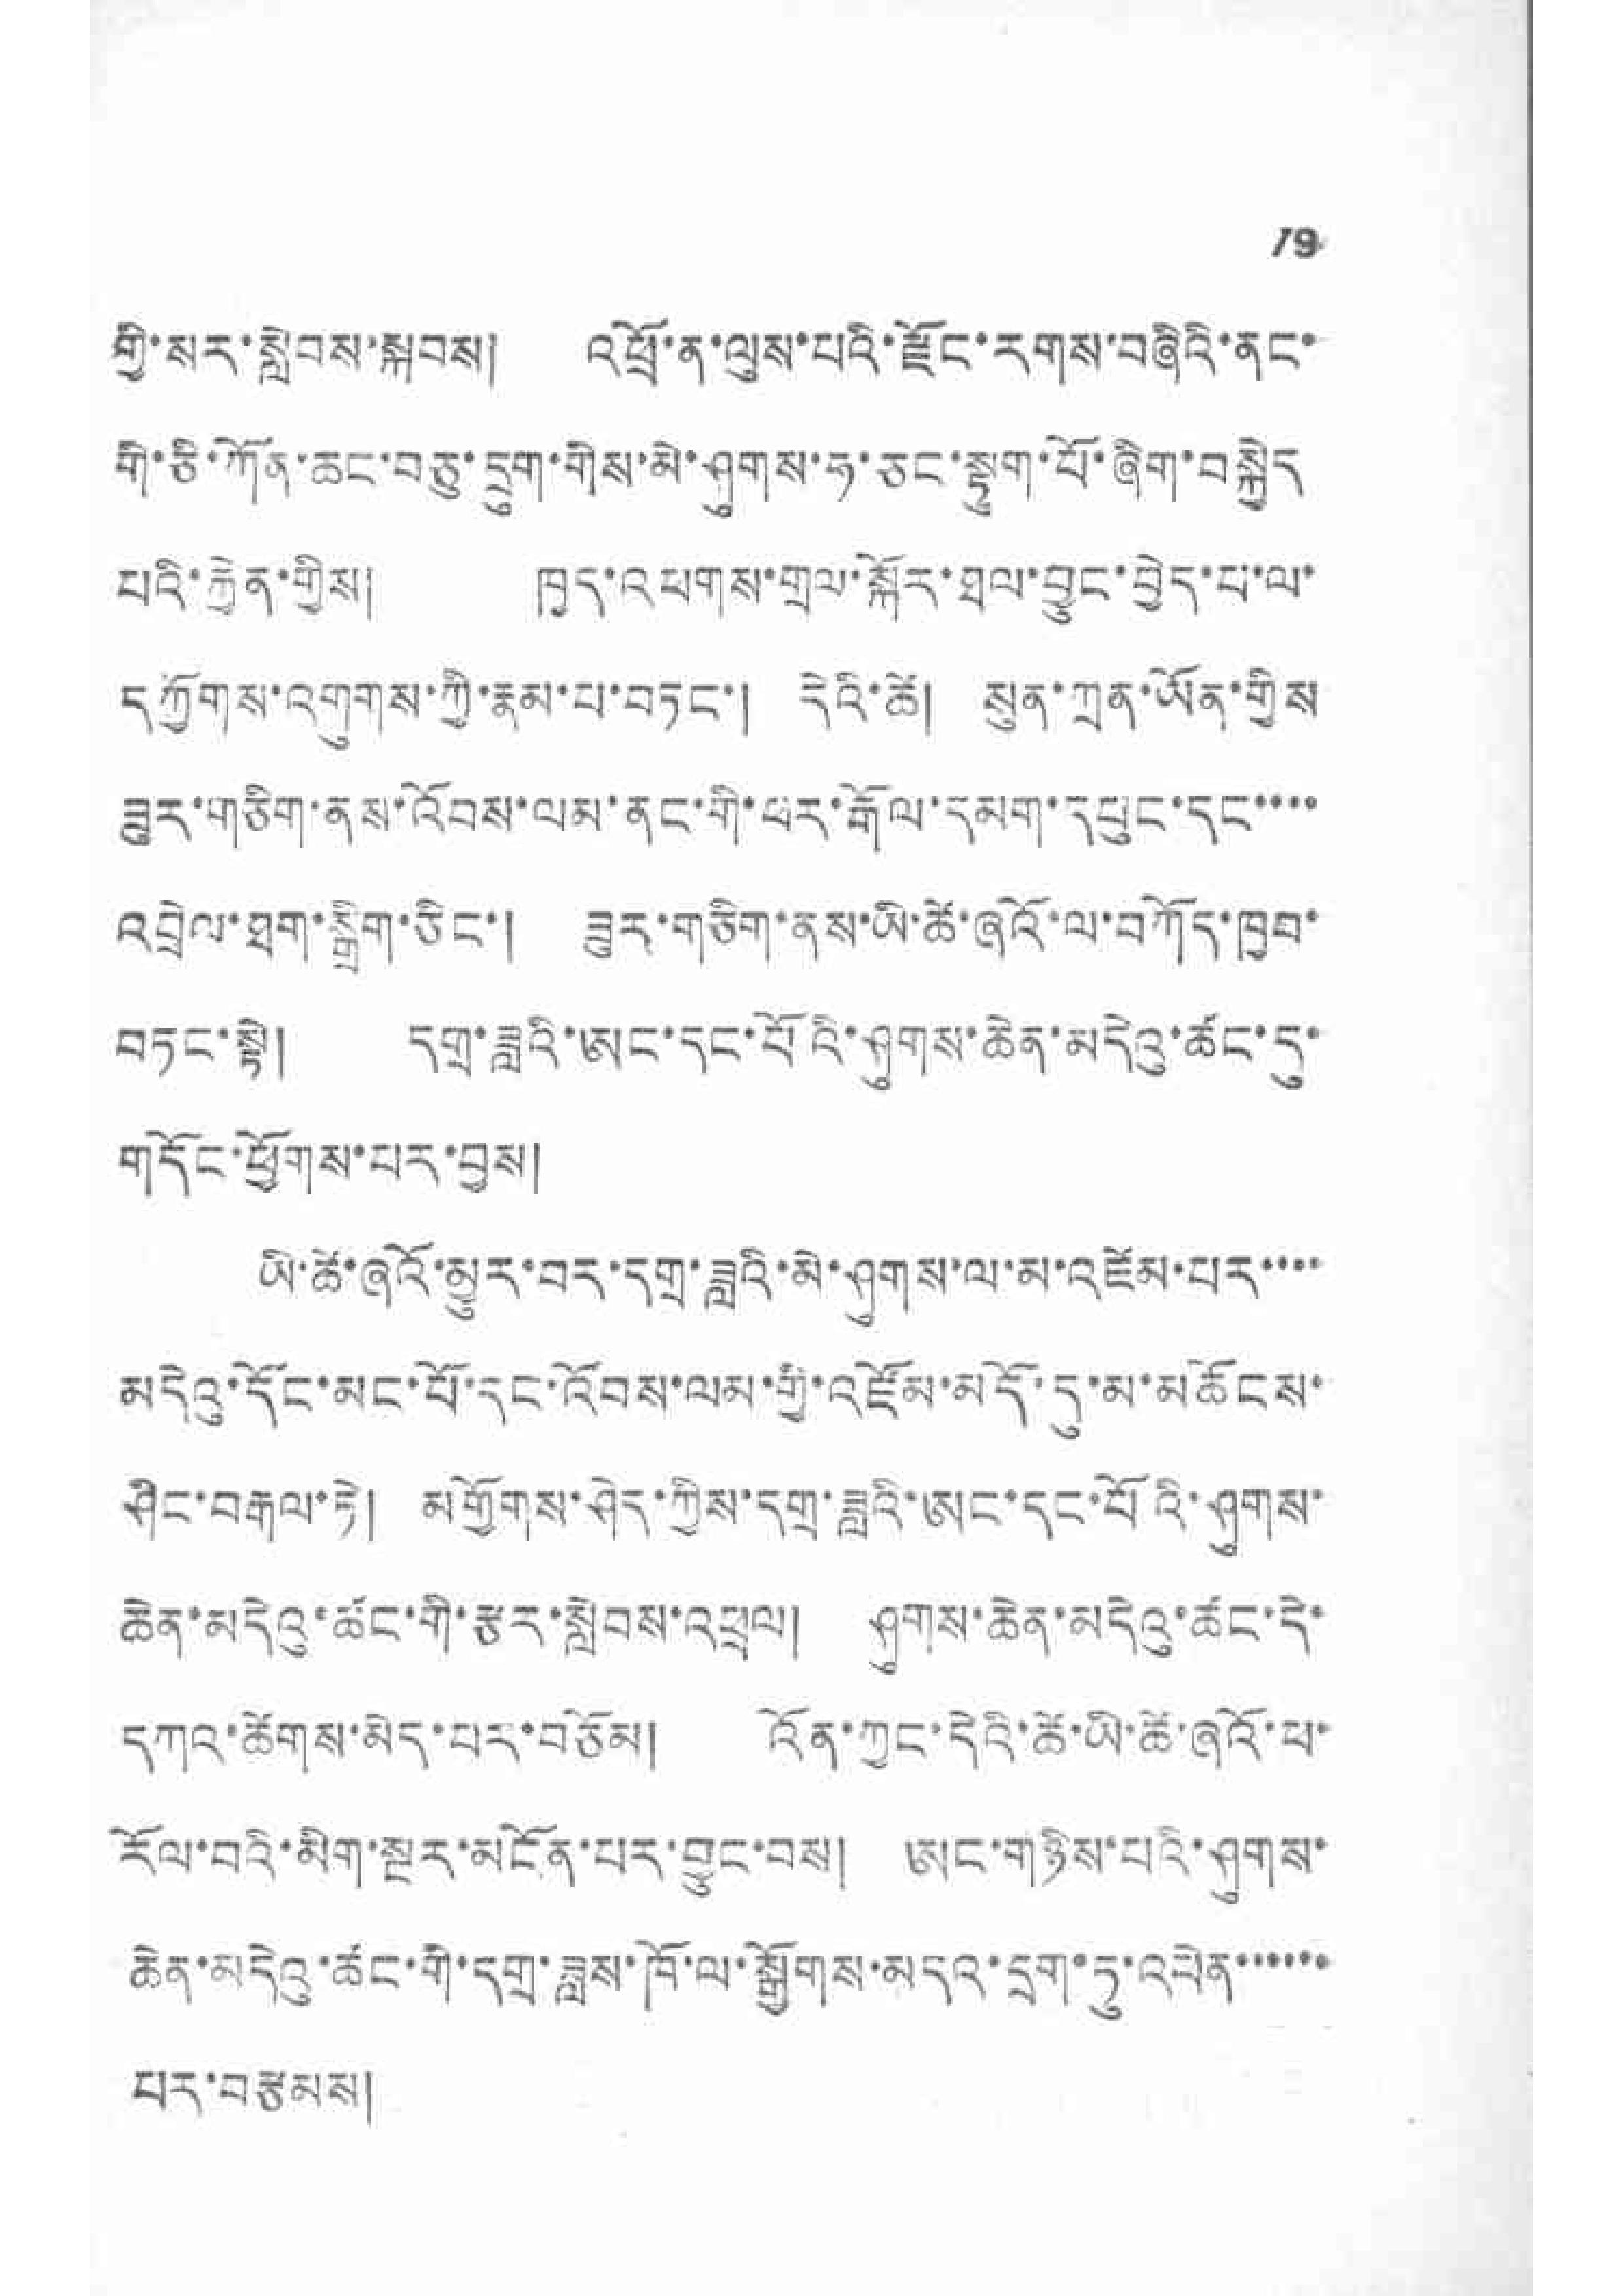19
གྱི་སར་སླེབས་སྐབས། འཕྲོ་ན་ལུས་པའི་རྫོང་རགས་བཞིའི་ནང་
གི་ཅི་ཀོན་ཆང་བཅུ་དྲུག་གིས་མེ་ཤུགས་ཧ་ཅང་སྟུག་པོ་ཞིག་བསྐྱེད
པའི་རྐྱེན་གྱིས། ཁྱར་འཕགས་གྲལ་སྐོར་ཐལ་བྱུང་བྱེད་པ་ལ་
དཀྱོགས་འགུགས་ཀྱི་རྣམ་པ་གཏང་། དེའི་ཚེ། སུན་ཀྲན་ཡོན་གྱིས
ཟུར་གཅིག་ནས་འོབས་ལམ་ནང་གི་ཕར་རྒོལ་དམག་དཔུང་དང་་་་
འབྲེལ་ཐག་སྒྲིག་ཅིང་། ཟུར་གཅིག་ནས་ཡི་ཚེ་ཞོའོ་ལ་བཀོད་ཁྱབ་
བཏང་སྟེ། དགྲ་ཟླའི་ཨང་དང་པོའི་ཤུགས་ཆེན་མདེའུ་ཚང་དུ་
གདོང་ཕྱོགས་པར་བྱས།
ཡི་ཚེ་ཞའོ་མྱུར་བར་དགྲ་ཟླའི་མེ་ཤུགས་ལ་མ་འཛེམ་པར་་་་
མདེའུ་དོང་མང་པོ་དང་འོབས་ལམ་གྱི་འཛོམ་མདོ་དུ་མ་མཆོངས་
ཤིང་བརྒལ་ཏེ། མགྱོགས་ཤེད་ཀྱིས་དགྲ་ཟླའི་ཨང་དང་པོའི་ཤུགས་
ཆེན་མདེའུ་ཚང་གི་རྩར་སླེབས་འཕྲུལ། ཤུགས་ཆེན་མདེའུ་ཚང་དེ་
དཀའ་ཚེགས་མེད་པར་བཅོམ། འོན་ཀྱང་དེའི་ཚེ་ཡི་ཚེ་ཞའོ་ཕ་
རོལ་བའི་མིག་སྔར་མངོན་པར་བྱུང་བས། ཨང་གཉིས་པའི་ཤུགས་
ཆེན་མདེའུ་ཚང་གི་དགྲ་ཟླས་ཁོ་ལ་སྒྱོགས་མདའ་དྲག་ཏུ་འཕེན་་་་་་
པར་བརྩམས།
